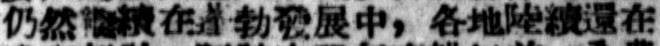仍然繼續在蓬勃發展中，各地陸續還在
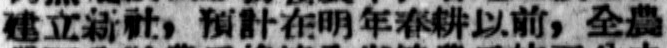建立新社，預計在明年春耕以前，全農
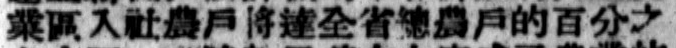業區入社農戶將達全省總農戶的百分之
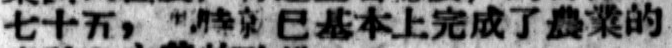七十五，當時就已基本上完成了農業的
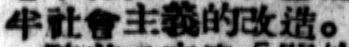半社會主義的改造。
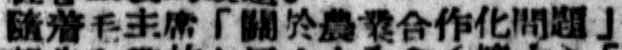隨着毛主席「關於農業合作化問題」
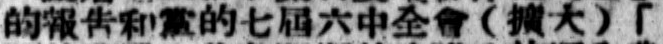的報告和黨的七屆六中全會（擴大）「
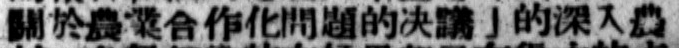關於農業合作化問題的決議」的深入農
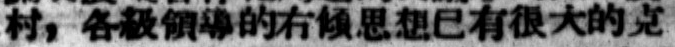村，各級領導的右傾思想已有很大的克
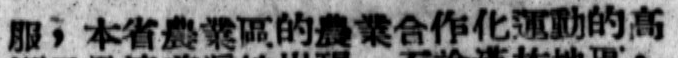服，本省農業區的農業合作化運動的高
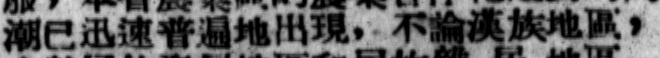潮已迅速普遍地出現，不論漢族地區，
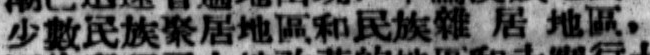少數民族聚居地區和民族雜 居 地區，
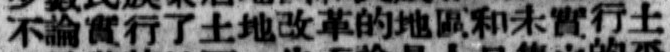不論實行了土地改革的地區和未實行土
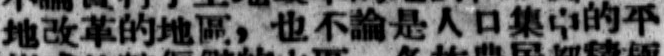地改革的地區，也不論是人口集中的平
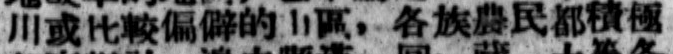川或比較偏僻的山區，各族農民都積極
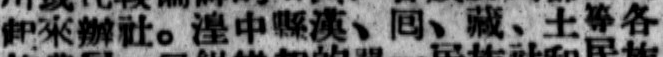起來辦社。湟中縣漢、囘、藏、土等各
